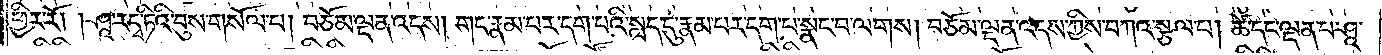ཕྱིར་རོ། །ཤཱ་རདྭ་ཏིའི་བུས་གསོལ་པ། བཅོམ་ལྡན་འདས། གང་རྣམ་པར་དག་པའི་སླད་དུ་རྣམ་པར་དག་པ་སྣང་བ་ལགས། བཅོམ་ལྡན་འདས་ཀྱིས་བཀའ་སྩལ་བ། ཚེ་དང་ལྡན་པ་ཤཱ་
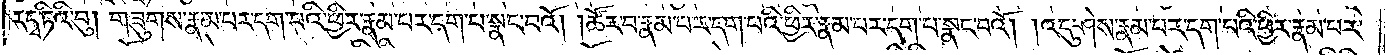རདྭ་ཏིའི་བུ། གཟུགས་རྣམ་པར་དག་པའི་ཕྱིར་རྣམ་པར་དག་པ་སྣང་བའོ། །ཚོར་བ་རྣམ་པར་དག་པའི་ཕྱིར་རྣམ་པར་དག་པ་སྣང་བའོ། །འདུ་ཤེས་རྣམ་པར་དག་པའི་ཕྱིར་རྣམ་པར་
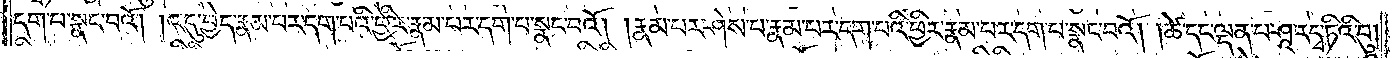དག་པ་སྣང་བའོ། །འདུ་བྱེད་རྣམ་པར་དག་པའི་ཕྱིར་རྣམ་པར་དག་པ་སྣང་བའོ། །རྣམ་པར་ཤེས་པ་རྣམ་པར་དག་པའི་ཕྱིར་རྣམ་པར་དག་པ་སྣང་བའོ། །ཚེ་དང་ལྡན་པ་ཤཱར་དྭ་ཏིའི་བུ།
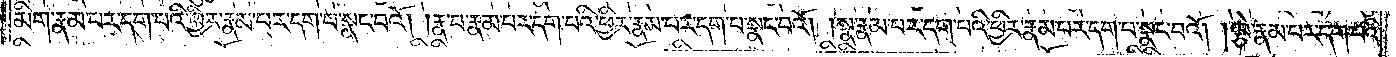མིག་རྣམ་པར་དག་པའི་ཕྱིར་རྣམ་པར་དག་པ་སྣང་བའོ། །རྣ་བ་རྣམ་པར་དག་པའི་ཕྱིར་རྣམ་པར་དག་པ་སྣང་བའོ། །སྣ་རྣམ་པར་དག་པའི་ཕྱིར་རྣམ་པར་དག་པ་སྣང་བའོ། །ལྕེ་རྣམ་པར་དག་པའི་
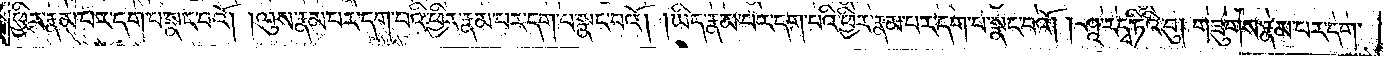ཕྱིར་རྣམ་པར་དག་པ་སྣང་བའོ། །ལུས་རྣམ་པར་དག་པའི་ཕྱིར་རྣམ་པར་དག་པ་སྣང་བའོ། །ཡིད་རྣམ་པར་དག་པའི་ཕྱིར་རྣམ་པར་དག་པ་སྣང་བའོ། །ཤཱ་རདྭ་ཏིའི་བུ། གཟུགས་རྣམ་པར་དག་
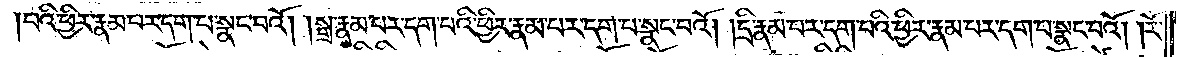པའི་ཕྱིར་རྣམ་པར་དག་པ་སྣང་བའོ། །སྒྲ་རྣམ་པར་དག་པའི་ཕྱིར་རྣམ་པར་དག་པ་སྣང་བའོ། །དྲི་རྣམ་པར་དག་པའི་ཕྱིར་རྣམ་པར་དག་པ་སྣང་བའོ། །རོ་
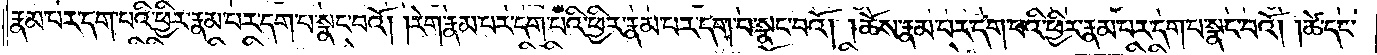རྣམ་པར་དག་པའི་ཕྱིར་རྣམ་པར་དག་པ་སྣང་བའོ། །རེག་རྣམ་པར་དག་པའི་ཕྱིར་རྣམ་པར་དག་པ་སྣང་བའོ། །ཆོས་རྣམ་པར་དག་པའི་ཕྱིར་རྣམ་པར་དག་པ་སྣང་བའོ། །ཚེ་དང་
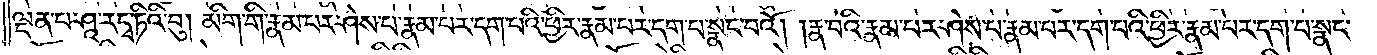ལྡན་པ་ཤཱ་རདྭ་ཏིའི་བུ། མིག་གི་རྣམ་པར་ཤེས་པ་རྣམ་པར་དག་པའི་ཕྱིར་རྣམ་པར་དག་པ་སྣང་བའོ། །རྣ་བའི་རྣམ་པར་ཤེས་པ་རྣམ་པར་དག་པའི་ཕྱིར་རྣམ་པར་དག་པ་སྣང་
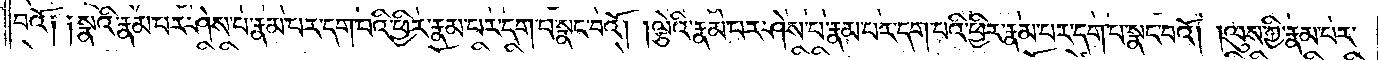བའོ༑ ༑སྣའི་རྣམ་པར་ཤེས་པ་རྣམ་པར་དག་པའི་ཕྱིར་རྣམ་པར་དག་པ་སྣང་བའོ། །ལྕེའི་རྣམ་པར་ཤེས་པ་རྣམ་པར་དག་པའི་ཕྱིར་རྣམ་པར་དག་པ་སྣང་བའོ། །ལུས་ཀྱི་རྣམ་པར་
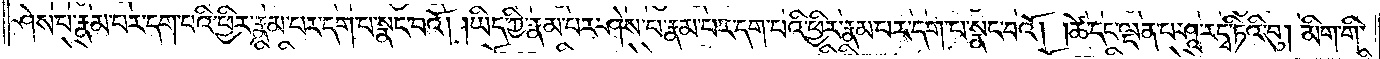ཤེས་པ་རྣམ་པར་དག་པའི་ཕྱིར་རྣམ་པར་དག་པ་སྣང་བའོ། །ཡིད་ཀྱི་རྣམ་པར་ཤེས་པ་རྣམ་པར་དག་པའི་ཕྱིར་རྣམ་པར་དག་པ་སྣང་བའོ། །ཚེ་དང་ལྡན་པ་ཤཱ་ར་དྭ་ཏིའི་བུ། མིག་གི་
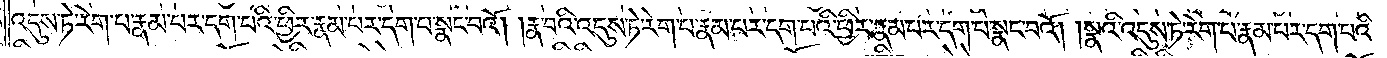འདུས་ཏེ་རེག་པ་རྣམ་པར་དག་པའི་ཕྱིར་རྣམ་པར་དག་པ་སྣང་བའོ། །རྣ་བའི་འདུས་ཏེ་རེག་པ་རྣམ་པར་དག་པའི་ཕྱིར་རྣམ་པར་དག་པ་སྣང་བའོ། །སྣའི་འདུས་ཏེ་རེག་པ་རྣམ་པར་དག་པའི་
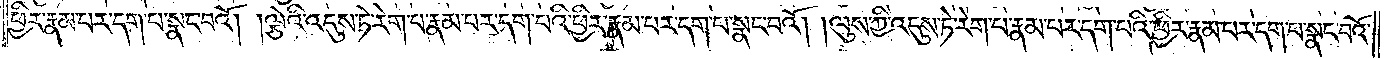ཕྱིར་རྣམ་པར་དག་པ་སྣང་བའོ། །ལྕེའི་འདུས་ཏེ་རེག་པ་རྣམ་པར་དག་པའི་ཕྱིར་རྣམ་པར་དག་པ་སྣང་བའོ། །ལུས་ཀྱི་འདུས་ཏེ་རེག་པ་རྣམ་པར་དག་པའི་ཕྱིར་རྣམ་པར་དག་པ་སྣང་བའོ༎
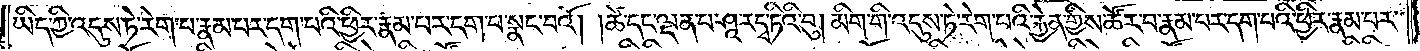ཡིད་ཀྱི་འདུས་ཏེ་རེག་པ་རྣམ་པར་དག་པའི་ཕྱིར་རྣམ་པར་དག་པ་སྣང་བའོ། །ཚེ་དང་ལྡན་པ་ཤཱ་ར་དྭ་ཏིའི་བུ། མིག་གི་འདུས་ཏེ་རེག་པའི་རྐྱེན་གྱིས་ཚོར་བ་རྣམ་པར་དག་པའི་ཕྱིར་རྣམ་པར་
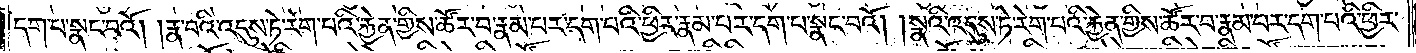དག་པ་སྣང་བའོ། །རྣ་བའི་འདུས་ཏེ་རེག་པའི་རྐྱེན་གྱིས་ཚོར་བ་རྣམ་པར་དག་པའི་ཕྱིར་རྣམ་པར་དག་པ་སྣང་བའོ། །སྣའི་འདུས་ཏེ་རེག་པའི་རྐྱེན་གྱིས་ཚོར་བ་རྣམ་པར་དག་པའི་ཕྱིར་
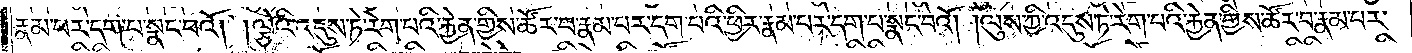རྣམ་པར་དག་པ་སྣང་བའོ། །ལྕེའི་འདུས་ཏེ་རེག་པའི་རྐྱེན་གྱིས་ཚོར་བ་རྣམ་པར་དག་པའི་ཕྱིར་རྣམ་པར་དག་པ་སྣང་བའོ། །ལུས་ཀྱི་འདུས་ཏེ་རེག་པའི་རྐྱེན་གྱིས་ཚོར་བ་རྣམ་པར་
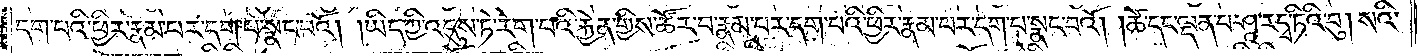དག་པའི་ཕྱིར་རྣམ་པར་དག་པ་སྣང་བའོ། །ཡིད་ཀྱི་འདུས་ཏེ་རེག་པའི་རྐྱེན་གྱིས་ཚོར་བ་རྣམ་པར་དག་པའི་ཕྱིར་རྣམ་པར་དག་པ་སྣང་བའོ། །ཚེ་དང་ལྡན་པ་ཤཱ་རདྭ་ཏིའི་བུ། སའི་
